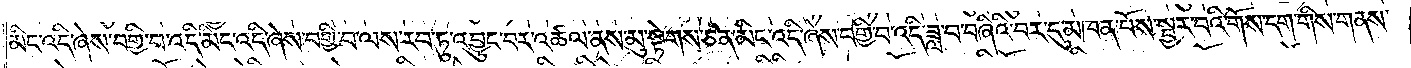མིང་འདི་ཞེས་བགྱི་བ་འདི་མིང་འདི་ཞེས་བགྱི་བ་ལས་རབ་ཏུ་འབྱུང་བར་འཚལ་ནས་མུ་སྟེགས་ཅན་མིང་འདི་ཞེས་བགྱི་བ་འདི་ཟླ་བ་བཞིའི་བར་དུ་མཁན་པོས་སྦྱར་བའི་གོས་དག་གིས་གནས་
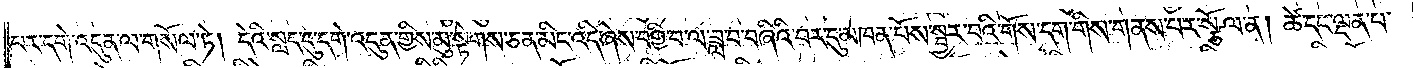པར་དགེ་འདུན་ལ་གསོལ་ཏེ། དེའི་སླད་དུ་དགེ་འདུན་གྱིས་མུ་སྟེགས་ཅན་མིང་འདི་ཞེས་བགྱི་བ་ལ་ཟླ་བ་བཞིའི་བར་དུ་མཁན་པོས་སྦྱར་བའི་གོས་དག་གིས་གནས་པར་སྩོལ་ན། ཚེ་དང་ལྡན་པ་
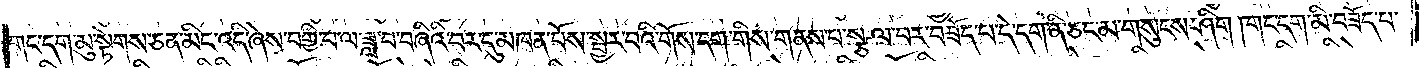གང་དག་མུ་སྟེགས་ཅན་མིང་འདི་ཞེས་བགྱི་བ་ལ་ཟླ་བ་བཞིའི་བར་དུ་མཁན་པོས་སྦྱར་བའི་གོས་དག་གིས་གནས་པ་སྩལ་བར་བཟོད་པ་དེ་དག་ནི་ཅང་མ་གསུངས་ཤིག །གང་དག་མི་བཟོད་པ་
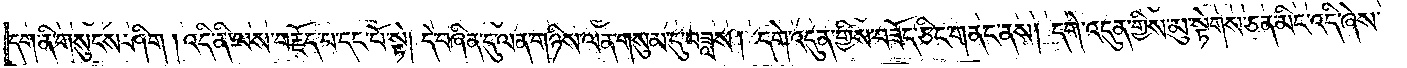དག་ནི་གསུངས་ཤིག །འདི་ནི་ལས་བརྗོད་པ་དང་པོ་སྟེ། དེ་བཞིན་དུ་ལན་གཉིས་ལན་གསུམ་དུ་བཟླས། དགེ་འདུན་གྱིས་བཟོད་ཅིང་གནང་ནས། དགེ་འདུན་གྱིས་མུ་སྟེགས་ཅན་མིང་འདི་ཞེས་
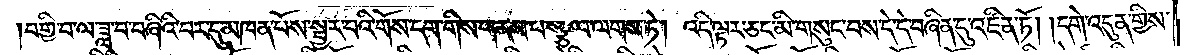བགྱི་བ་ལ་ཟླ་བ་བཞིའི་བར་དུ་མཁན་པོས་སྦྱར་བའི་གོས་དག་གིས་གནས་པ་སྩལ་ལགས་ཏེ། འདི་ལྟར་ཅང་མི་གསུང་བས་དེ་དེ་བཞིན་དུ་འཛིན་ཏོ། །དགེ་འདུན་གྱིས་
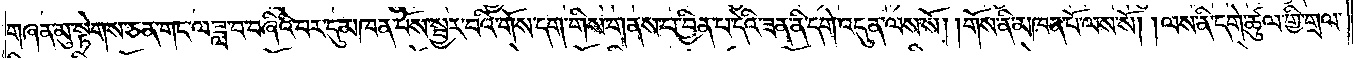གཞན་མུ་སྟེགས་ཅན་གང་ལ་ཟླ་བ་བཞིའི་བར་དུ་མཁན་པོས་སྦྱར་བའི་གོས་དག་གིས་གནས་པ་བྱིན་པ་དེའི་ཟན་ནི་དགེ་འདུན་ལས་སོ། །གོས་ནི་མཁན་པོ་ལས་སོ། །ལས་ནི་དགེ་ཚུལ་གྱི་གྲལ་
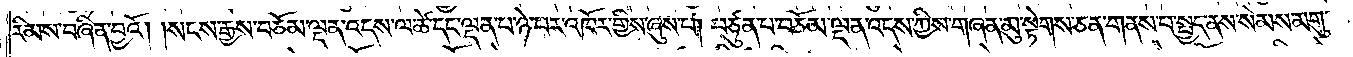རིམས་བཞིན་བྱའོ། །སངས་རྒྱས་བཅོམ་ལྡན་འདས་ལ་ཚེ་དང་ལྡན་པ་ཉེ་བར་འཁོར་གྱིས་ཞུས་པ། བཙུན་པ་བཅོམ་ལྡན་འདས་ཀྱིས་གཞན་མུ་སྟེགས་ཅན་གནས་པ་སྤྱད་ནས་སེམས་མགུ་
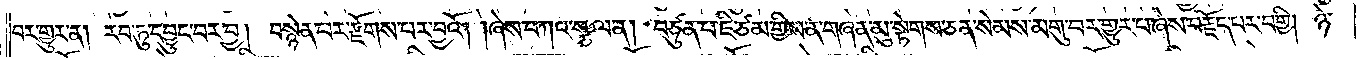པར་གྱུར་ན། རབ་ཏུ་དབྱུང་བར་བྱ། བསྙེན་པར་རྫོགས་པར་བྱའོ། །ཞེས་བཀའ་སྩལ་ན། བཙུན་པ་ཇི་ཙམ་གྱིས་ན་གཞན་མུ་སྟེགས་ཅན་སེམས་མགུ་བར་གྱུར་པ་ཞེས་བརྗོད་པར་བགྱི། ཉེ་
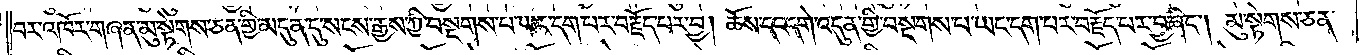བར་འཁོར་གཞན་མུ་སྟེགས་ཅན་གྱི་མདུན་དུ་སངས་རྒྱས་ཀྱི་བསྔགས་པ་ཡང་དག་པར་བརྗོད་པར་བྱ། ཆོས་དང་དགེ་འདུན་གྱི་བསྔགས་པ་ཡང་དག་པར་བརྗོད་པར་བྱ་ཞིང༌། མུ་སྟེགས་ཅན་
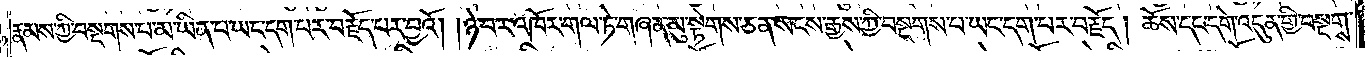རྣམས་ཀྱི་བསྔགས་པ་མ་ཡིན་པ་ཡང་དག་པར་བརྗོད་པར་བྱའོ། །ཉེ་བར་འཁོར་གལ་ཏེ་གཞན་མུ་སྟེགས་ཅན་སངས་རྒྱས་ཀྱི་བསྔགས་པ་ཡང་དག་པར་བརྗོད། ཆོས་དང་དགེ་འདུན་གྱི་བསྔགས་
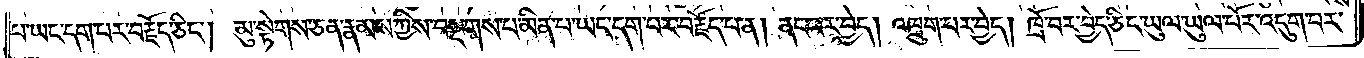པ་ཡང་དག་པར་བརྗོད་ཅིང༌། མུ་སྟེགས་ཅན་རྣམས་ཀྱིས་བསྔགས་པ་མིན་པ་ཡང་དག་པར་བརྗོད་པ་ན། ནང་པར་བྱེད། འཁྲུག་པར་བྱེད། ཁྲོ་བར་བྱེད་ཅིང་ཡུལ་ཡུལ་པོར་འདུག་པར་
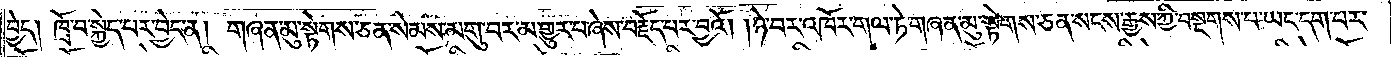བྱེད། ཁྲོ་བ་སྐྱེད་པར་བྱེད་ན། གཞན་མུ་སྟེགས་ཅན་སེམས་མགུ་བར་མ་གྱུར་པ་ཞེས་བརྗོད་པར་བྱའོ། །ཉེ་བར་འཁོར་གལ་ཏེ་གཞན་མུ་སྟེགས་ཅན་སངས་རྒྱས་ཀྱི་བསྔགས་པ་ཡང་དག་པར་
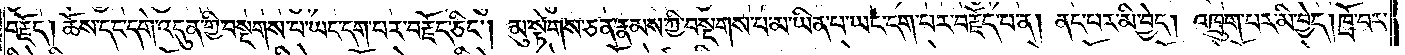བརྗོད། ཆོས་དང་དགེ་འདུན་གྱི་བསྔགས་པ་ཡང་དག་པར་བརྗོད་ཅིང༌། མུ་སྟེགས་ཅན་རྣམས་ཀྱི་བསྔགས་པ་མ་ཡིན་པ་ཡང་དག་པར་བརྗོད་པ་ན། ནང་པར་མི་བྱེད། འཁྲུག་པར་མི་བྱེད། ཁྲོ་བར་
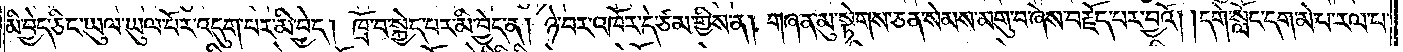མི་བྱེད་ཅིང་ཡུལ་ཡུལ་པོར་འདུག་པར་མི་བྱེད། ཁྲོ་བ་སྐྱེད་པར་མི་བྱེད་ན། ཉེ་བར་འཁོར་དེ་ཙམ་གྱིས་ན། གཞན་མུ་སྟེགས་ཅན་སེམས་མགུ་བ་ཞེས་བརྗོད་པར་བྱའོ། །དགེ་སློང་དག་མེ་པ་རལ་པ་
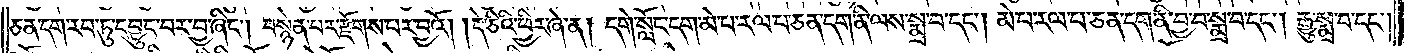ཅན་དག་རབ་ཏུ་དབྱུང་བར་བྱ་ཞིང༌། བསྙེན་པར་རྫོགས་པར་བྱའོ། །དེ་ཅིའི་ཕྱིར་ཞེ་ན། དགེ་སློང་དག་མེ་པ་རལ་པ་ཅན་དག་ནི་ལས་སྨྲ་བ་དང༌། མེ་པ་རལ་པ་ཅན་དག་ནི་བྱ་བ་སྨྲ་བ་དང༌། རྒྱུ་སྨྲ་བ་དང༌།
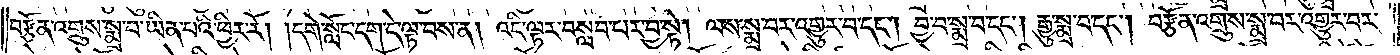བརྩོན་འགྲུས་སྨྲ་བ་ཡིན་པའི་ཕྱིར་རོ། །དགེ་སློང་དག་དེ་ལྟ་བས་ན། འདི་ལྟར་བསླབ་པར་བྱ་སྟེ། ལས་སྨྲ་བར་འགྱུར་བ་དང༌། བྱ་བ་སྨྲ་བ་དང༌། རྒྱུ་སྨྲ་བ་དང༌། བརྩོན་འགྲུས་སྨྲ་བར་འགྱུར་བར་
